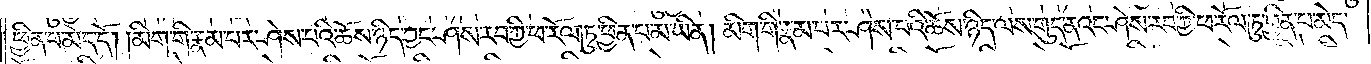ཕྱིན་པ་མེད་དོ། །མིག་གི་རྣམ་པར་ཤེས་པའི་ཆོས་ཉིད་ཀྱང་ཤེས་རབ་ཀྱི་ཕ་རོལ་ཏུ་ཕྱིན་པ་མ་ཡིན། མིག་གི་རྣམ་པར་ཤེས་པའི་ཆོས་ཉིད་ལས་གུད་ནའང་ཤེས་རབ་ཀྱི་ཕ་རོལ་ཏུ་ཕྱིན་པ་མེད་
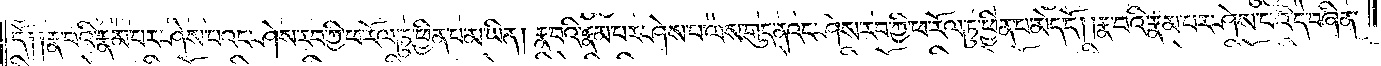དོ། །རྣ་བའི་རྣམ་པར་ཤེས་པའང་ཤེས་རབ་ཀྱི་ཕ་རོལ་ཏུ་ཕྱིན་པ་མ་ཡིན། རྣ་བའི་རྣམ་པར་ཤེས་པ་ལས་གུད་ནའང་ཤེས་རབ་ཀྱི་ཕ་རོལ་ཏུ་ཕྱིན་པ་མེད་དོ། །རྣ་བའི་རྣམ་པར་ཤེས་པའི་དེ་བཞིན་
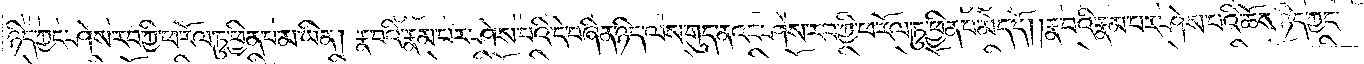ཉིད་ཀྱང་ཤེས་རབ་ཀྱི་ཕ་རོལ་ཏུ་ཕྱིན་པ་མ་ཡིན། རྣ་བའི་རྣམ་པར་ཤེས་པའི་དེ་བཞིན་ཉིད་ལས་གུད་ནའང་ཤེས་རབ་ཀྱི་ཕ་རོལ་ཏུ་ཕྱིན་པ་མེད་དོ། །རྣ་བའི་རྣམ་པར་ཤེས་པའི་ཆོས་ཉིད་ཀྱང་
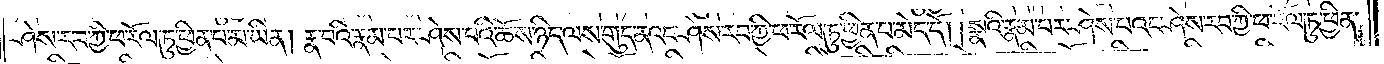ཤེས་རབ་ཀྱི་ཕ་རོལ་ཏུ་ཕྱིན་པ་མ་ཡིན། རྣ་བའི་རྣམ་པར་ཤེས་པའི་ཆོས་ཉིད་ལས་གུད་ནའང་ཤེས་རབ་ཀྱི་ཕ་རོལ་ཏུ་ཕྱིན་པ་མེད་དོ། །སྣའི་རྣམ་པར་ཤེས་པའང་ཤེས་རབ་ཀྱི་ཕ་རོལ་ཏུ་ཕྱིན་
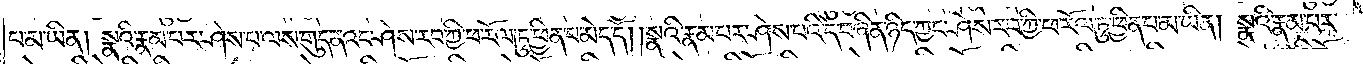པ་མ་ཡིན། སྣའི་རྣམ་པར་ཤེས་པ་ལས་གུད་ནའང་ཤེས་རབ་ཀྱི་ཕ་རོལ་ཏུ་ཕྱིན་པ་མེད་དོ། །སྣའི་རྣམ་པར་ཤེས་པའི་དེ་བཞིན་ཉིད་ཀྱང་ཤེས་རབ་ཀྱི་ཕ་རོལ་ཏུ་ཕྱིན་པ་མ་ཡིན། སྣའི་རྣམ་པར་
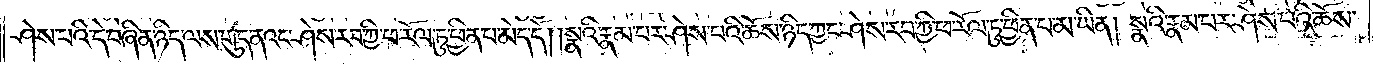ཤེས་པའི་དེ་བཞིན་ཉིད་ལས་གུད་ནའང་ཤེས་རབ་ཀྱི་ཕ་རོལ་ཏུ་ཕྱིན་པ་མེད་དོ། །སྣའི་རྣམ་པར་ཤེས་པའི་ཆོས་ཉིད་ཀྱང་ཤེས་རབ་ཀྱི་ཕ་རོལ་ཏུ་ཕྱིན་པ་མ་ཡིན། སྣའི་རྣམ་པར་ཤེས་པའི་ཆོས་
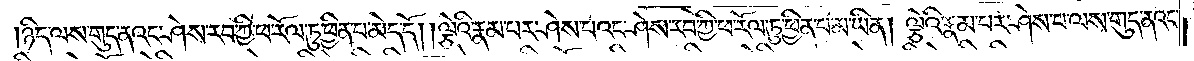ཉིད་ལས་གུད་ནའང་ཤེས་རབ་ཀྱི་ཕ་རོལ་ཏུ་ཕྱིན་པ་མེད་དོ། །ལྕེའི་རྣམ་པར་ཤེས་པའང་ཤེས་རབ་ཀྱི་ཕ་རོལ་ཏུ་ཕྱིན་པ་མ་ཡིན། ལྕེའི་རྣམ་པར་ཤེས་པ་ལས་གུད་ནའང་
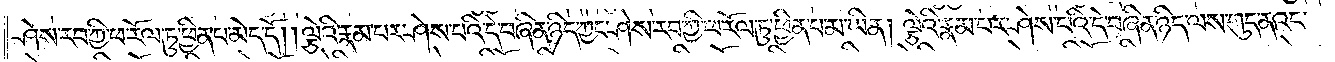ཤེས་རབ་ཀྱི་ཕ་རོལ་ཏུ་ཕྱིན་པ་མེད་དོ། །ལྕེའི་རྣམ་པར་ཤེས་པའི་དེ་བཞིན་ཉིད་ཀྱང་ཤེས་རབ་ཀྱི་ཕ་རོལ་ཏུ་ཕྱིན་པ་མ་ཡིན། ལྕེའི་རྣམ་པར་ཤེས་པའི་དེ་བཞིན་ཉིད་ལས་གུད་ནའང་
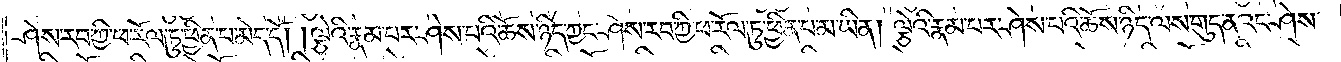ཤེས་རབ་ཀྱི་ཕ་རོལ་ཏུ་ཕྱིན་པ་མེད་དོ། །ལྕེའི་རྣམ་པར་ཤེས་པའི་ཆོས་ཉིད་ཀྱང་ཤེས་རབ་ཀྱི་ཕ་རོལ་ཏུ་ཕྱིན་པ་མ་ཡིན། ལྕེའི་རྣམ་པར་ཤེས་པའི་ཆོས་ཉིད་ལས་གུད་ནའང་ཤེས་
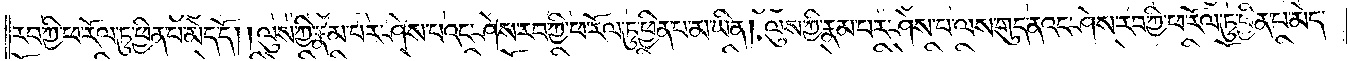རབ་ཀྱི་ཕ་རོལ་ཏུ་ཕྱིན་པ་མེད་དོ། །ལུས་ཀྱི་རྣམ་པར་ཤེས་པའང་ཤེས་རབ་ཀྱི་ཕ་རོལ་ཏུ་ཕྱིན་པ་མ་ཡིན། ལུས་ཀྱི་རྣམ་པར་ཤེས་པ་ལས་གུད་ནའང་ཤེས་རབ་ཀྱི་ཕ་རོལ་ཏུ་ཕྱིན་པ་མེད་
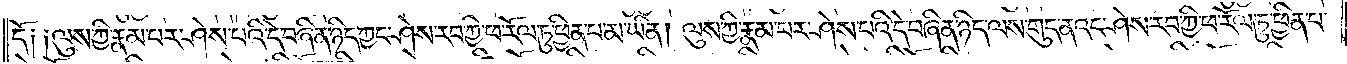དོ། །ལུས་ཀྱི་རྣམ་པར་ཤེས་པའི་དེ་བཞིན་ཉིད་ཀྱང་ཤེས་རབ་ཀྱི་ཕ་རོལ་ཏུ་ཕྱིན་པ་མ་ཡིན། ལུས་ཀྱི་རྣམ་པར་ཤེས་པའི་དེ་བཞིན་ཉིད་ལས་གུད་ནའང་ཤེས་རབ་ཀྱི་ཕ་རོལ་ཏུ་ཕྱིན་པ་
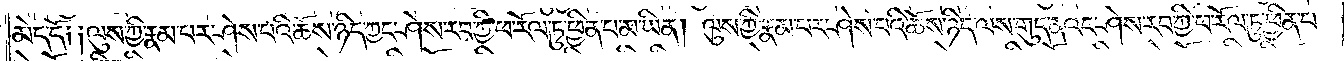མེད་དོ། །ལུས་ཀྱི་རྣམ་པར་ཤེས་པའི་ཆོས་ཉིད་ཀྱང་ཤེས་རབ་ཀྱི་ཕ་རོལ་ཏུ་ཕྱིན་པ་མ་ཡིན། །ལུས་ཀྱི་རྣམ་པར་ཤེས་པའི་ཆོས་ཉིད་ལས་གུད་ནའང་ཤེས་རབ་ཀྱི་ཕ་རོལ་ཏུ་ཕྱིན་པ་
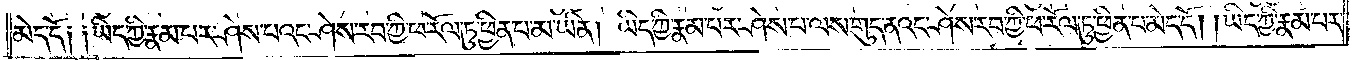མེད་དོ། །ཡིད་ཀྱི་རྣམ་པར་ཤེས་པའང་ཤེས་རབ་ཀྱི་ཕ་རོལ་ཏུ་ཕྱིན་པ་མ་ཡིན། ཡིད་ཀྱི་རྣམ་པར་ཤེས་པ་ལས་གུད་ནའང་ཤེས་རབ་ཀྱི་ཕ་རོལ་ཏུ་ཕྱིན་པ་མེད་དོ། །ཡིད་ཀྱི་རྣམ་པར་
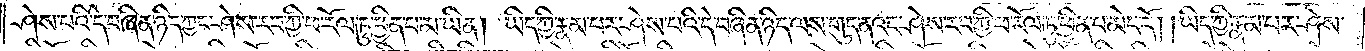ཤེས་པའི་དེ་བཞིན་ཉིད་ཀྱང་ཤེས་རབ་ཀྱི་ཕ་རོལ་ཏུ་ཕྱིན་པ་མ་ཡིན། ཡིད་ཀྱི་རྣམ་པར་ཤེས་པའི་དེ་བཞིན་ཉིད་ལས་གུད་ནའང་ཤེས་རབ་ཀྱི་ཕ་རོལ་ཏུ་ཕྱིན་པ་མེད་དོ། །ཡིད་ཀྱི་རྣམ་པར་ཤེས་
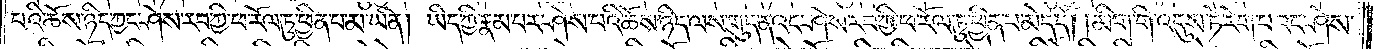པའི་ཆོས་ཉིད་ཀྱང་ཤེས་རབ་ཀྱི་ཕ་རོལ་ཏུ་ཕྱིན་པ་མ་ཡིན། ཡིད་ཀྱི་རྣམ་པར་ཤེས་པའི་ཆོས་ཉིད་ལས་གུད་ནའང་ཤེས་རབ་ཀྱི་ཕ་རོལ་ཏུ་ཕྱིན་པ་མེད་དོ། །མིག་གི་འདུས་ཏེ་རེག་པའང་ཤེས་
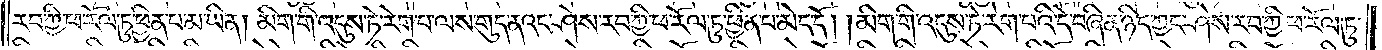རབ་ཀྱི་ཕ་རོལ་ཏུ་ཕྱིན་པ་མ་ཡིན། མིག་གི་འདུས་ཏེ་རེག་པ་ལས་གུད་ནའང་ཤེས་རབ་ཀྱི་ཕ་རོལ་ཏུ་ཕྱིན་པ་མེད་དོ། །མིག་གི་འདུས་ཏེ་རེག་པའི་དེ་བཞིན་ཉིད་ཀྱང་ཤེས་རབ་ཀྱི་ཕ་རོལ་ཏུ་
